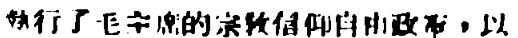執行了毛主席的宗敎信仰自由政策，以
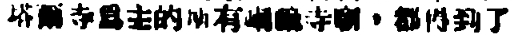塔爾寺爲主的所有喇嘛寺廟，都得到了
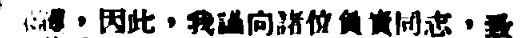保護，因此，我謹向諸位負責同志，致
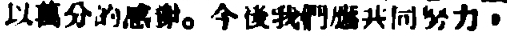以萬分的感謝。今後我們應共同努力，
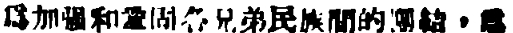爲加強和鞏固各兄弟民族間的團結，爲
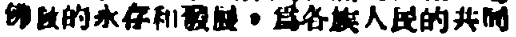佛敎的永存和發展，爲各族人民的共同
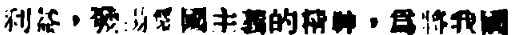利益，發揚愛國主義的精神，爲將我國
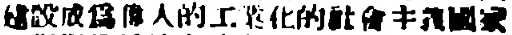建設成爲偉大的工業化的社會主義國家
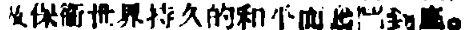及保衛世界持久的和平而奮鬥到底。
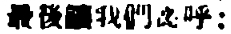最後讓我們高呼：
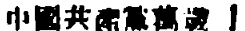中國共產黨萬歲！
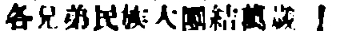各兄弟民族大團結萬歲！
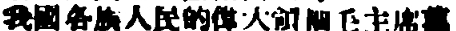我國各族人民的偉大領袖毛主席萬
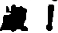歲！
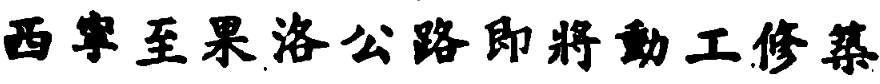西寧至果洛公路即將動工修築
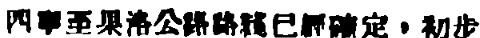西寧至果洛公路路綫已經確定，初步
